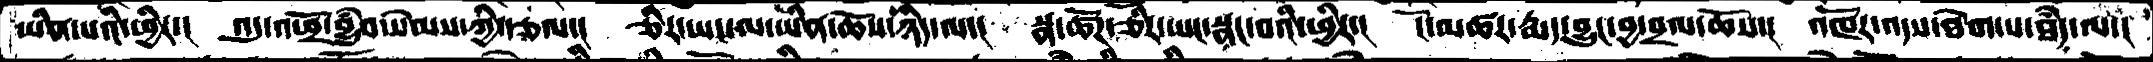ཡིན་པའི་ཕྱིར་།   འདུ་འཕྲོ་བྱུཾབ་སེམས་ཀྱི་རྩལ་།  ཅིར་ཡང་མ་ཡིན་ཆོས་ཉིད་ལ་།  སྣ་ཚོཌ་ཅིར་ཡང་སྣང་བའི་ཕྱིར་།  ངོ་མཚར་རྨད་བྱུང་བྱ་བྲལ་ཆོས་།  འཁོར་འདས་ཐེག་པ་ཐཾད་ལ་།
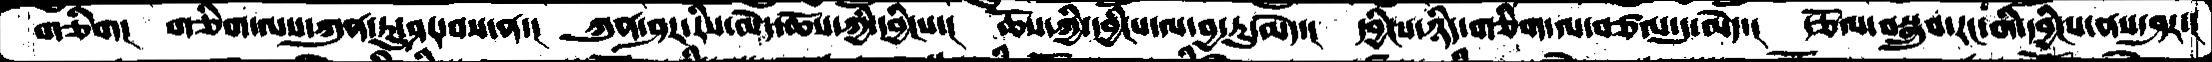གཅིག།  གཅིག་ལས་ཀུན་ཏུ་ཤར་བས་ན་།  ཀུན་ཤར་རིས་མེད་ཆོས་ཀྱི་དབྱིངས་།  ཆོས་ཀྱི་དབྱིངས་ལ་བྱ་རུ་མེད་།  དབྱིངས་ཉིད་གཅིག་ལ་བཙལ་དུ་མེད་།  རྩོལ་བསྒྲུབ་རང་གི་དབྱིངས་ནས་ཤར་།
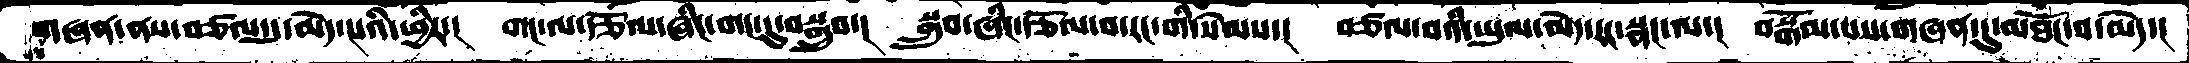གཞན་ནས་བཙལ་དུ་མེད་པའི་ཕྱིར་།  གང་ལ་རྩོལ་ཞིང་གང་དུ་བསྒྲུབ་།   སྒྲུབ་ཞིང་རྩོལ་བ་རང་གི་སེམས་།  བཙལ་བའི་ཡུལ་མེད་རང་སྣང་ལ་།  བསྒོམ་པས་གཞན་དུ་མཐོང་བ་མེད་།
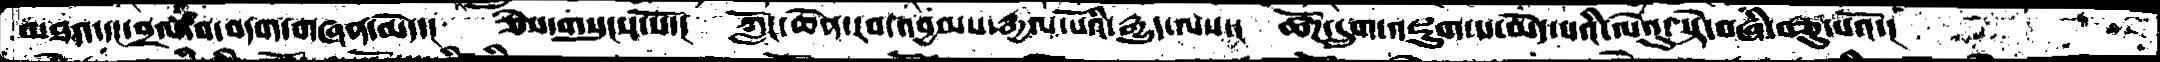མཐའ་དང་བྲལ་བ་བདག་གཞན་མེད་།  ཅེས་གསུངས་སོ་།  ཀློང་ཆེན་རབ་འབྱམས་རྒྱལ་པོའི་རྒྱུད་ལས་།  ཚོཌ་དྲུག་འཇུག་པ་མེད་པའི་ལེའུ་སྟེ་བཞི་བཅུ་པའོ་།
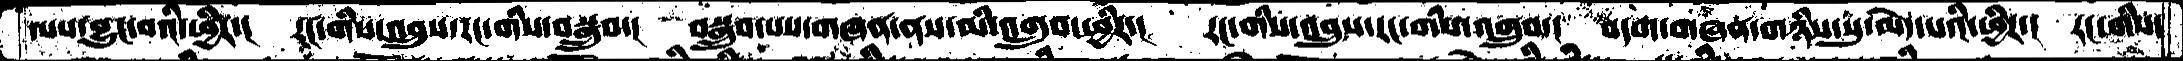ལས་བྱུང་བའི་ཕྱིར་།  རང་གིས་འབྲུས་རང་གིས་བསྒྲུབ་།  བསྒྲུབ་པས་གཞན་ནས་མི་འགྲུབ་ཕྱིར་།  རང་གིས་འབྲུས་རང་གིས་འགྲུབ་།  བདག་གཞན་གཉིས་སུ་མེད་པའི་ཕྱིར་།  རང་གིས་
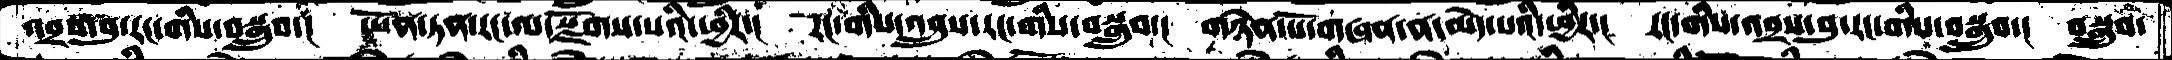འབྲས་བུ་རང་གིས་བསྒྲུབ་།  ཡོན་ཏན་རང་ལ་སྫོགས་པའི་ཕྱིར་།  རང་གིས་འབྲུས་རང་གིས་བསྒྲུབ་།  གཉེན་པོ་གཞན་ན་མེད་པའི་ཕྱིར་།  རང་གིས་འབྲས་བུ་རང་གིས་བསྒྲུབ་།  བསྒྲུབ་
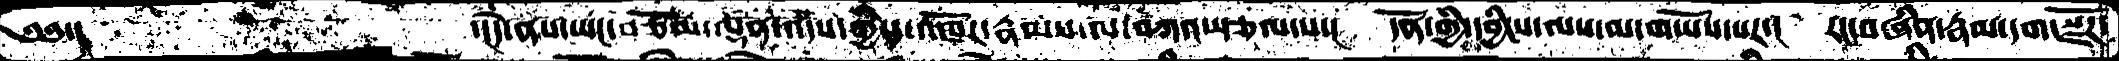༄༅་།         ་།དེ་ནས་ཡང་བཅོམ་ལྡན་འདས་གྱིས་འཁོར་རྣམས་ལ་བཀའ་སྩལ་པ་།  དོན་གྱི་དབྱིངས་ལས་མ་གཡོས་པར་།  རང་བཞིན་རྣམ་དག་སྫོཌ་
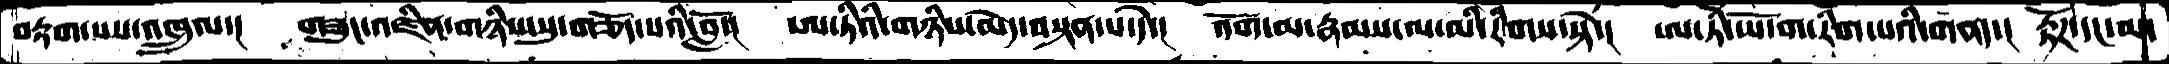བརྟག་པས་འཁྲུལ་།  གཟུང་འཛིན་གཉིས་སུ་གཅོད་པའི་བློ་།  ཨ་ཏིའི་གཉིས་མེད་བསྟན་པ་དེ་།  འོག་མ་རྣམས་ལ་མི་རིགས་སྟེ་།  ཨ་ཏི་ཡོ་ག་རིག་པའི་གནད་།  རྟོཌ་དང་མ་
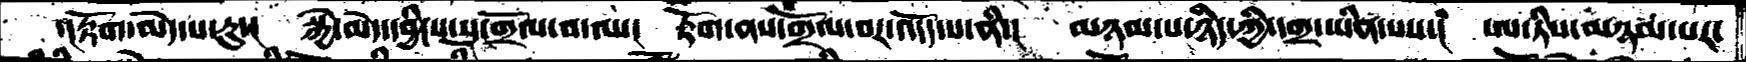་།རྟོག་མེད་པ་རུ་།  སྐྱེ་མེད་དབྱིངས་སུ་གྲོལ་བ་ལ་།  རྟོག་ནས་གྲོལ་བར་འདོད་པ་ནི་།  མཉམ་པ་ཉིད་ཀྱི་དགྲ་ཡིན་པས་།  ཨ་་ཏིས་མཉམ་པར་
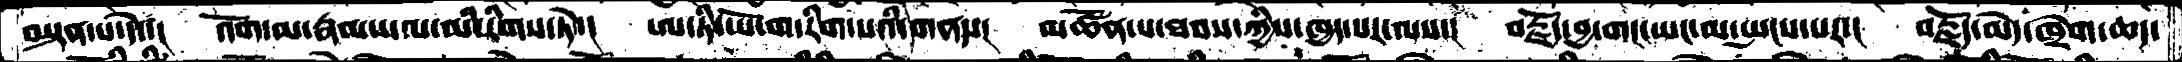བསྟན་པ་དེ་།  འོག་མ་རྣམས་ལ་མི་རིགས་ཏེ་།  ཨ་ཏི་ཡོ་ག་རིག་པའི་གནས་།  མཚོན་པ་ཐབས་ཀྱིས་ཁྱད་པར་ལས་།  བརྗོད་བྱ་གང་ཡང་མ་སྤངས་པར་།  བརྗོད་མེད་ཁྲེག་ཆད་
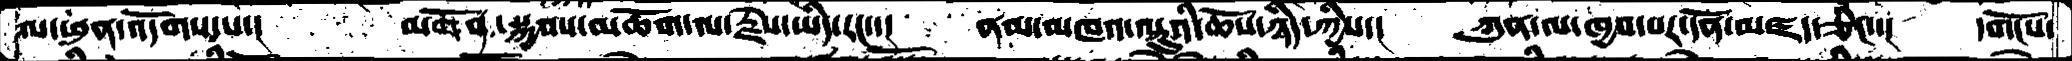ལ་ཕུན་འདོགས་པ་།  མགོན་སྐྱབས་མཆོག་ལ་རྗེས་ཡིད་རང་་།   ནམ་མཁའ་ལྟུའི་ཆོས་ཉིད་ཀྱིས་།   ཀུན་ལ་ཁྱབ་པར་དོན་མཛད་ཅིང་་།  དགོངས་
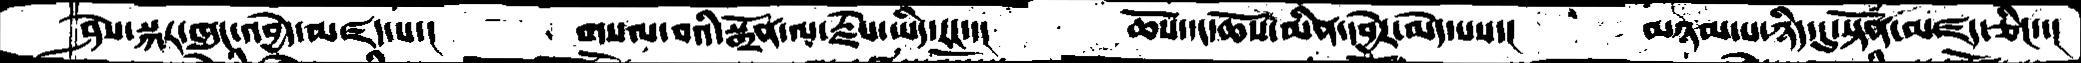ཤེས་སྐར་ཁུང་འབྱེད་མཛད་པ་།      གསལ་བའི་སྒྲོན་ལ་རྗེས་ཡིད་རང་་།     ཆོས་དང་ཆོས་མིན་དབྱེར་མེད་པས་།     མཉམ་པ་ཉིད་དུ་སྟོན་མཛད་ཅིང་་།
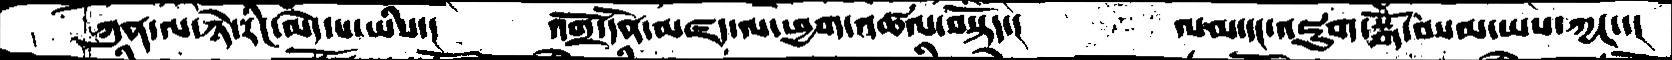ཀུན་ལ་ཉེ་རིང་མེད་པ་ཡིས་།   འགྲོ་དོན་མཛད་ལ་ཕྱག་འཚལ་བསྟོད་།    ལམ་དང་འཇུག་སྒོ་བསམ་ཡས་ཀྱང་་།
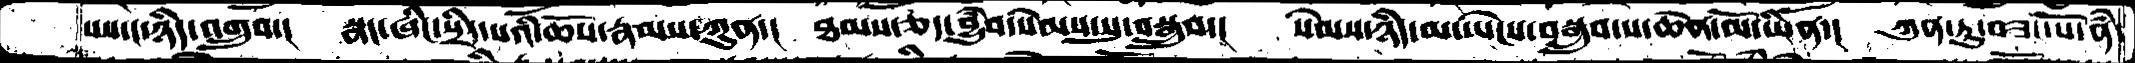པས་ང་ཉིད་འགྲུབ་།  སྣང་ཞིང་སྲིད་པའི་ཆོས་རྣམས་ཀུན་།  ཐམས་ཅད་བྱུཾབ་སེམས་སུ་བསྒྲུབ་།  སེམས་ཉིད་མ་ཡེངས་བསྒྲུབ་པ་ཆེན་མོ་ཡིན་།  ཀུན་ཏུ་བཟང་པོ་ནཾ་
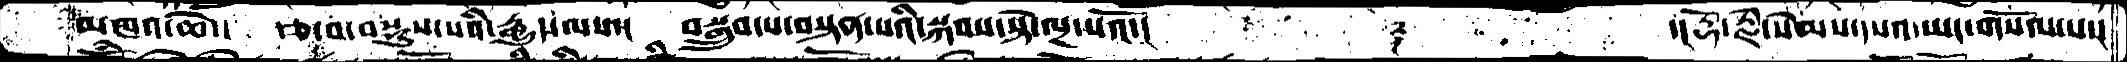མཁའ་ཆེ་།  རྩ་བ་བསྡུས་པའི་རྒྱུད་ལས་།  བསྒྲུབ་པ་བསྟན་པའི་སྐབས་སྟེ་ལྔ་པའོ་།        ༈       ་།རྡོ་རྗེ་སེམས་དཔའ་ཡང་གསོལ་པ་།
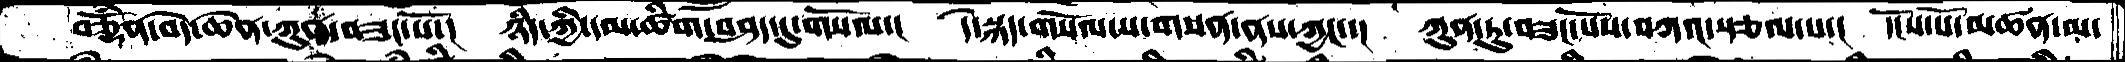བཅྡོཾན་བདེ་ཆེན་ཀུན་བཟང་པོ་།  ཉིད་ཀྱི་དམ་ཚིག་བཤད་དུ་གསོལ་།  དེ་སྐད་གསོལ་པ་གསན་ནས་ཀྱང་་།  ཀུན་ཏུ་བཟང་པོས་བཀའ་སྩལ་པ་།  དངོས་པོ་མཚན་མ་
